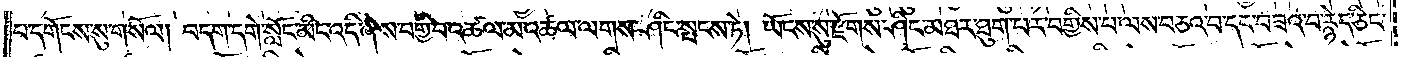པ་དགོངས་སུ་གསོལ། བདག་དགེ་སློང་མིང་འདི་ཞེས་བགྱི་བ་འཚལ་མ་འཚལ་ལགས་ཤིང་སྤངས་ཏེ། ཡོངས་སུ་རྫོགས་ཤིང་མཐར་ཐུག་པར་བགྱིས་པ་ལས་བཅའ་བ་དང་བཟའ་བ་རྙེད་ཅིང་
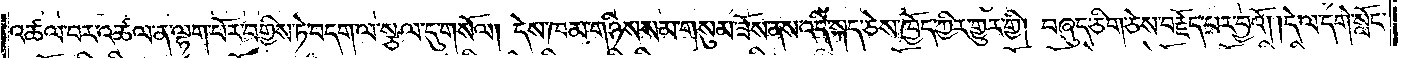འཚལ་བར་འཚལ་ན་ལྷག་པོར་བགྱིས་ཏེ་བདག་ལ་སྩལ་དུ་གསོལ། དེས་ཁམ་གཉིས་སམ་གསུམ་ཟོས་ནས་འདི་སྐད་ཅེས་ཁྱོད་ཀྱིར་གྱུར་གྱི། བཞུད་ཅིག་ཅེས་བརྗོད་པར་བྱའོ། །དེ་ལ་དགེ་སློང་
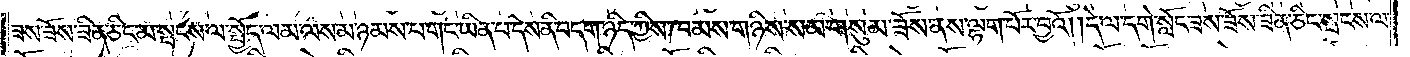ཟས་ཟོས་ཟིན་ཅིང་མ་སྤངས་ལ་སྤྱོད་ལམ་ལས་མ་ཉམས་པ་གང་ཡིན་པ་དེས་ནི་བདག་ཉིད་ཀྱིས་ཁམས་གཉིས་སམ་གསུམ་ཟོས་ནས་ལྷག་པོར་བྱའོ། །དེ་ལ་དགེ་སློང་ཟས་ཟོས་ཟིན་ཅིང་སྤངས་ལ་
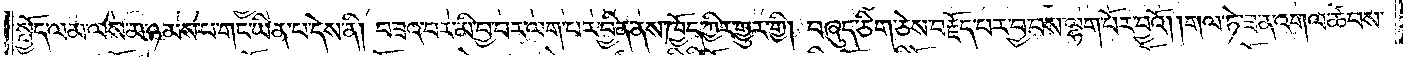སྤྱོད་ལམ་ལས་མ་ཉམས་པ་གང་ཡིན་པ་དེས་ནི། བཟའ་བར་མི་བྱ་བར་ལག་པར་བྱིན་ནས་ཁྱོད་ཀྱིར་གྱུར་གྱི། བཞུད་ཅིག་ཅེས་བརྗོད་པར་བྱ་བས་ལྷག་པོར་བྱའོ། །གལ་ཏེ་ཟེ་ན་འགའ་ཚབས་
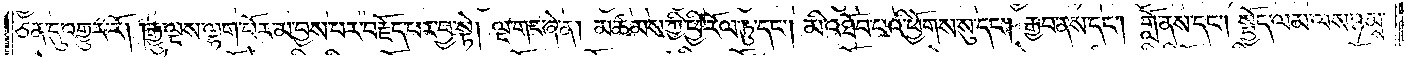ཅན་དུ་འགྱུར་རོ། །རྒྱུ་ལྔས་ལྷག་པོར་མ་བྱས་པར་བརྗོད་པར་བྱ་སྟེ། ལྔ་གང་ཞེ་ན། མཚམས་ཀྱི་ཕྱི་རོལ་ཏུ་དང༌། མི་འཐོབ་པའི་ཕྱོགས་སུ་དང༌། རྒྱབ་ནས་དང༌། གློ་ནས་དང༌། སྤྱོད་ལམ་ལས་ཉམས་
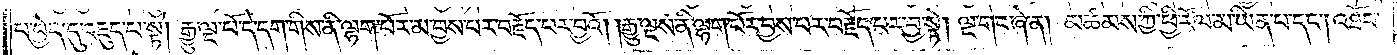པ་བྱེད་དུ་འཇུད་པ་སྟེ། རྒྱུ་ལྔ་པོ་དེ་དག་གིས་ནི་ལྷག་པོར་མ་བྱས་པར་བརྗོད་པར་བྱའོ། །རྒྱུ་ལྔས་ནི་ལྷག་པོར་བྱས་པར་བརྗོད་པར་བྱ་སྟེ། ལྔ་གང་ཞེ་ན། མཚམས་ཀྱི་ཕྱི་རོལ་མ་ཡིན་པ་དང༌།འཐོབ་
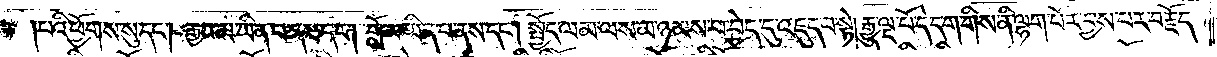པའི་ཕྱོགས་སུ་དང༌། རྒྱབ་མ་ཡིན་པ་ནས་དང༌། གློ་མ་ཡིན་པ་ནས་དང༌། སྤྱོད་ལམ་ལས་མ་ཉམས་པ་བྱེད་དུ་འཇུད་པ་སྟེ། རྒྱུ་ལྔ་པོ་དེ་དག་གིས་ནི་ལྷག་པོར་བྱས་པར་བརྗོད་
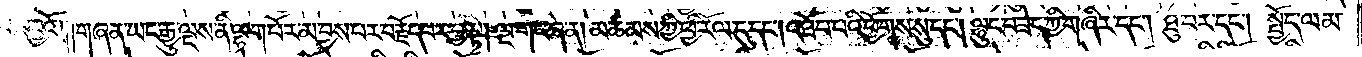པར་བྱའོ། །གཞན་ཡང་རྒྱུ་ལྔས་ནི་ལྷག་པོར་མ་བྱས་པར་བརྗོད་པར་བྱ་སྟེ། ལྔ་གང་ཞེ་ན། མཚམས་ཀྱི་ཕྱི་རོལ་དུ་དང༌། འཐོབ་པའི་ཕྱོགས་སུ་དང༌། ལྷུང་བཟེད་ཀྱི་གཞིར་དང༌། ཐུ་བར་དང༌། སྤྱོད་ལམ་
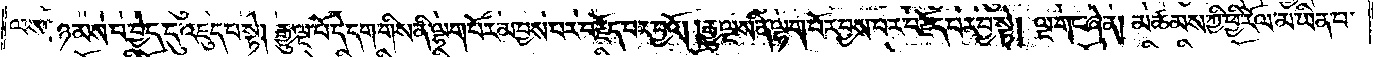ལས་ཉམས་པ་བྱེད་དུ་འཇུད་པ་སྟེ། རྒྱུ་ལྔ་པོ་དེ་དག་གིས་ནི་ལྷག་པོར་མ་བྱས་པར་བརྗོད་པར་བྱའོ། །རྒྱུ་ལྔས་ནི་ལྷག་པོར་བྱས་པར་བརྗོད་པར་བྱ་སྟེ། ལྔ་གང་ཞེ་ན། མཚམས་ཀྱི་ཕྱི་རོལ་མ་ཡིན་པ་
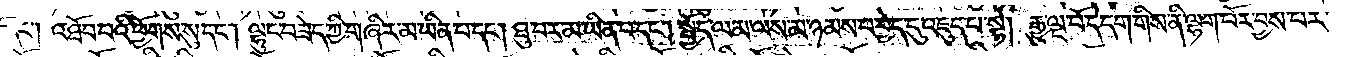དང༌། འཐོབ་པའི་ཕྱོགས་སུ་དང༌། ལྷུང་བཟེད་ཀྱི་གཞིར་མ་ཡིན་པ་དང༌། ཐུ་བར་མ་ཡིན་པ་དང༌། སྤྱོད་ལམ་ལས་མ་ཉམས་པ་བྱེད་དུ་འཇུད་པ་སྟེ། རྒྱུ་ལྔ་པོ་དེ་དག་གིས་ནི་ལྷག་པོར་བྱས་པར་
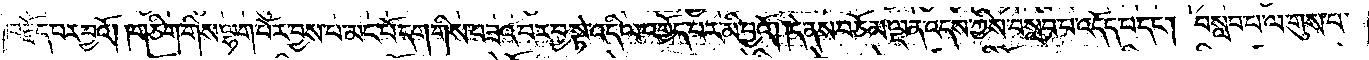བརྗོད་པར་བྱའོ། །གཅིག་གིས་ལྷག་པོར་བྱས་པ་མང་པོ་དག་གིས་བཟའ་བར་བྱ་སྟེ་འདི་ལ་འགྱོད་པར་མི་བྱའོ། །དེ་ནས་བཅོམ་ལྡན་འདས་ཀྱིས་བསླབ་པ་འདོད་པ་དང༌། བསླབ་པ་ལ་གུས་པ་
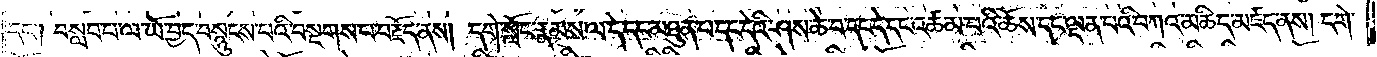དང༌། བསླབ་པ་ལ་ཡོ་བྱད་བསྙུངས་པའི་བསྔགས་པ་བརྗོད་ནས། དགེ་སློང་རྣམས་ལ་དེ་དང་མཐུན་པ་དང་དེའི་ཤས་ཆེ་བ་དང་དེ་དང་འཚམ་པའི་ཆོས་དང་ལྡན་པའི་བཀའ་མཆིད་མཛད་ནས། དགེ་
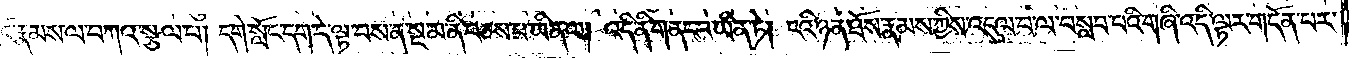སློང་རྣམས་ལ་བཀའ་སྩལ་པ། དགེ་སློང་དག་དེ་ལྟ་བས་ན་སྔ་མ་ནི་བཅས་པ་ཡིན་ལ། འདི་ནི་གནང་བ་ཡིན་ཏེ། ངའི་ཉན་ཐོས་རྣམས་ཀྱིས་འདུལ་བ་ལ་བསླབ་པའི་གཞི་འདི་ལྟར་གདོན་པར་
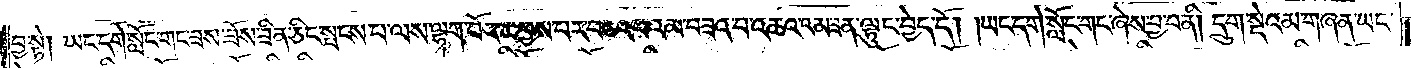བྱ་སྟེ། ཡང་དགེ་སློང་གང་ཟས་ཟོས་ཟིན་ཅིང་སྤངས་པ་ལས་ལྷག་པོར་མ་བྱས་པར་བཅའ་བའམ་བཟའ་བ་འཆའ་འམ་ཟ་ན་ལྟུང་བྱེད་དོ། །ཡང་དགེ་སློང་གང་ཞེས་བྱ་བ་ནི། དྲུག་སྡེའམ་གཞན་ཡང་
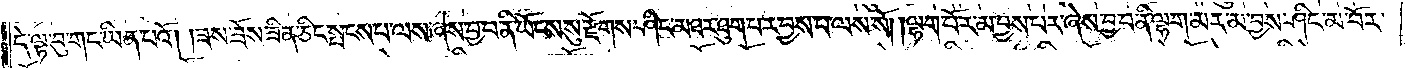དེ་ལྟ་བུ་གང་ཡིན་པའོ། །ཟས་ཟོས་ཟིན་ཅིང་སྤངས་པ་ལས་ཞེས་བྱ་བ་ནི་ཡོངས་སུ་རྫོགས་ཤིང་མཐར་ཐུག་པར་བྱས་པ་ལས་སོ། །ལྷག་པོར་མ་བྱས་པར་ཞེས་བྱ་བ་ནི་ལྷག་མར་མ་བྱས་ཤིང་མ་བོར་
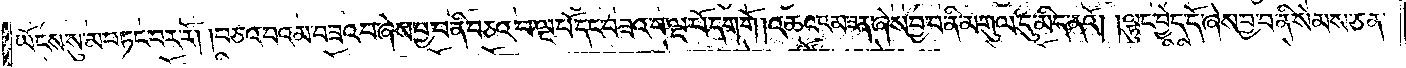ཡོངས་སུ་མ་བཏང་བར་རོ། །བཅའ་བའམ་བཟའ་བ་ཞེས་བྱ་བ་ནི་བཅའ་བ་ལྔ་པོ་དང་བཟའ་བ་ལྔ་པོ་དག་གོ །འཆའ་འམ་ཟན་ཞེས་བྱ་བ་ནི་མགུལ་དུ་མིད་ནའོ། །ལྟུང་བྱེད་དོ་ཞེས་བྱ་བ་ནི་སེམས་ཅན་
